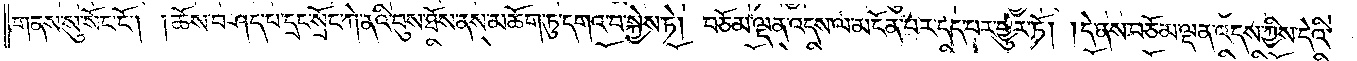གནས་སུ་སོང་ངོ༌། །ཆོས་བཤད་པ་དྲང་སྲོང་ཀེ་ནའི་བུས་ཐོས་ནས་མཆོག་ཏུ་དགའ་བ་སྐྱེས་ཏེ། བཅོམ་ལྡན་འདས་ལ་མངོན་པར་དད་པར་གྱུར་ཏོ། །དེ་ནས་བཅོམ་ལྡན་འདས་ཀྱིས་དེའི་
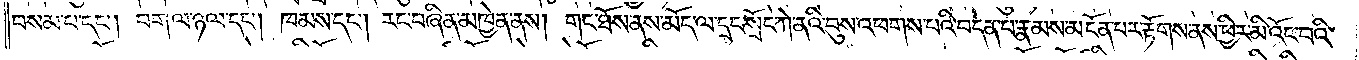བསམ་པ་དང༌། བག་ལ་ཉལ་དང༌། ཁམས་དང༌། རང་བཞིན་མཁྱེན་ནས། གང་ཐོས་ནས་མོད་ལ་དྲང་སྲོང་ཀེ་ནའི་བུས་འཕགས་པའི་བདེན་པ་རྣམས་མངོན་པར་རྟོགས་ནས་ཕྱིར་མི་འོང་བའི་
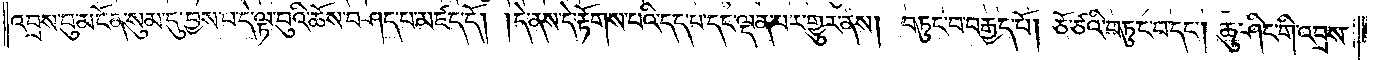འབྲས་བུ་མངོན་སུམ་དུ་བྱས་པ་དེ་ལྟ་བུའི་ཆོས་བཤད་པ་མཛད་དོ། །དེ་ནས་དེ་རྟོགས་པའི་དད་པ་དང་ལྡན་པར་གྱུར་ནས། བཏུང་བ་བརྒྱད་པོ། ཅོ་ཙའི་བཏུང་བ་དང༌། ཆུ་ཤིང་གི་འབྲས་
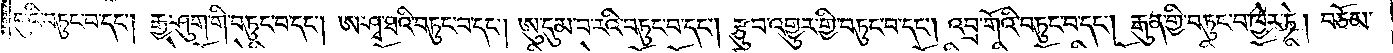བུའི་བཏུང་བ་དང༌། རྒྱ་ཤུག་གི་བཏུང་བ་དང༌། ཨ་ཤྭ་ཐའི་བཏུང་བ་དང༌། ཨུ་དུམ་བ་རའི་བཏུང་བ་དང༌། རྩུབ་འགྱུར་གྱི་བཏུང་བ་དང༌། འབྲ་གོའི་བཏུང་བ་དང༌། རྒུན་གྱི་བཏུང་བ་ཁྱེར་ཏེ། བཅོམ་
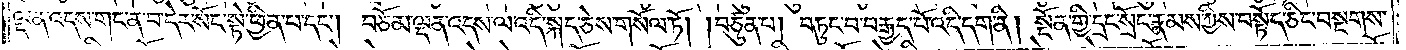ལྡན་འདས་གང་ན་བ་དེར་སོང་སྟེ་ཕྱིན་པ་དང༌། བཅོམ་ལྡན་འདས་ལ་འདི་སྐད་ཅེས་གསོལ་ཏོ། །བཙུན་པ། བཏུང་བ་བརྒྱད་པོ་འདི་དག་ནི། སྔོན་གྱི་དྲང་སྲོང་རྣམས་ཀྱིས་བསྟོད་ཅིང་བསྔགས་
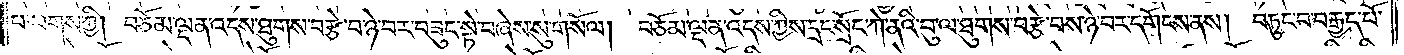པ་ལགས་ཀྱི། བཅོམ་ལྡན་འདས་ཐུགས་བརྩེ་བ་ཉེ་བར་བཟུང་སྟེ་བཞེས་སུ་གསོལ། བཅོམ་ལྡན་འདས་ཀྱིས་དྲང་སྲོང་ཀེ་ནའི་བུ་ལ་ཐུགས་བརྩེ་བས་ཉེ་བར་དགོངས་ནས། བཏུང་བ་བརྒྱད་པོ་
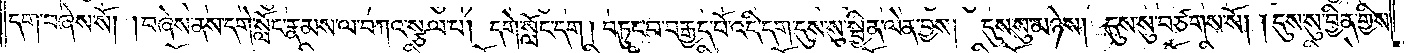དག་བཞེས་སོ། །བཞེས་ནས་དགེ་སློང་རྣམས་ལ་བཀའ་སྩལ་པ། དགེ་སློང་དག། བཏུང་བ་བརྒྱད་པོ་འདི་དག་དུས་སུ་སྦྱིན་ལེན་བྱས། དུས་སུ་མཉེས། དུས་སུ་བཙགས་སོ། །དུས་སུ་བྱིན་གྱིས་
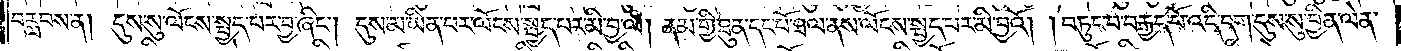བརླབས་ན། དུས་སུ་ལོངས་སྤྱད་པར་བྱ་ཞིང༌། དུས་མ་ཡིན་པར་ལོངས་སྤྱད་པར་མི་བྱ་ལ། ནམ་གྱི་ཐུན་དང་པོ་ཐལ་ནས་ལོངས་སྤྱད་པར་མི་བྱའོ། །བཏུང་བ་བརྒྱད་པོ་འདི་དག་དུས་སུ་བྱིན་ལེན་
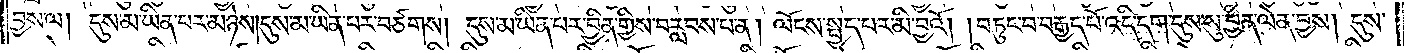བྱས་ལ། དུས་མ་ཡིན་པར་མཉེས། དུས་མ་ཡིན་པར་བཙགས། དུས་མ་ཡིན་པར་བྱིན་གྱིས་བརླབས་པ་ན། ལོངས་སྤྱད་པར་མི་བྱའོ། །བཏུང་བ་བརྒྱད་པོ་འདི་དག་དུས་སུ་བྱིན་ལེན་བྱས། དུས་
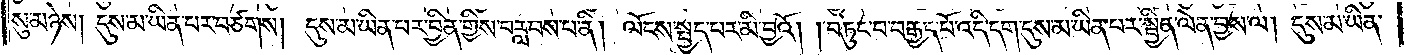སུ་མཉེས། དུས་མ་ཡིན་པར་བཙགས། དུས་མ་ཡིན་པར་བྱིན་གྱིས་བརླབས་པ་ནི། ལོངས་སྤྱད་པར་མི་བྱའོ། །བཏུང་བ་བརྒྱད་པོ་འདི་དག་དུས་མ་ཡིན་པར་སྦྱིན་ལེན་བྱས་ལ། དུས་མ་ཡིན་
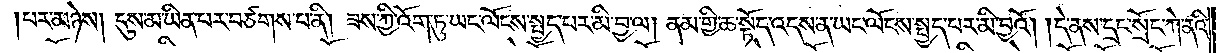པར་མཉེས། དུས་མ་ཡིན་པར་བཙགས་པ་ནི། ཟས་ཀྱི་འོག་ཏུ་ཡང་ལོངས་སྤྱད་པར་མི་བྱ་ལ། ནམ་གྱི་ཆ་སྟོད་འདས་ན་ཡང་ལོངས་སྤྱད་པར་མི་བྱའོ། །དེ་ནས་དྲང་སྲོང་ཀེ་ནའི་
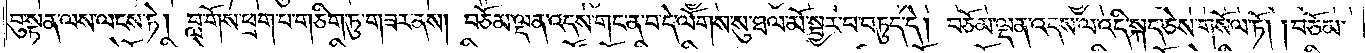བུ་སྟན་ལས་ལངས་ཏེ། བླ་གོས་ཕྲག་པ་གཅིག་ཏུ་གཟར་ནས། བཅོམ་ལྡན་འདས་གང་ན་བ་དེ་ལོགས་སུ་ཐལ་མོ་སྦྱར་བ་བཏུད་དེ། བཅོམ་ལྡན་འདས་ལ་འདི་སྐད་ཅེས་གསོལ་ཏོ། །བཅོམ་
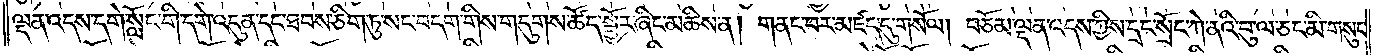ལྡན་འདས་དགེ་སློང་གི་དགེ་འདུན་དང་ཐབས་ཅིག་ཏུ་སང་བདག་གིས་གདུགས་ཚོད་སྦྱོར་ཞིང་མཆིས་ན། གནང་བར་མཛད་དུ་གསོལ། བཅོམ་ལྡན་འདས་ཀྱིས་དྲང་སྲོང་ཀེ་ནའི་བུ་ལ་ཅང་མི་གསུང་
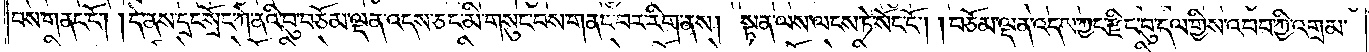བས་གནང་ངོ༌། །དེ་ནས་དྲང་སྲོང་ཀེ་ནའི་བུ་བཅོམ་ལྡན་འདས་ཅང་མི་གསུང་བས་གནང་བར་རིག་ནས། སྟན་ལས་ལངས་ཏེ་སོང་ངོ༌། །བཅོམ་ལྡན་འདས་ཀྱང་རྫིང་བུ་དལ་གྱིས་འབབ་ཀྱི་འགྲམ་
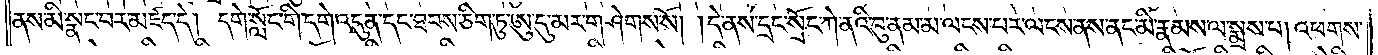ནས་མི་སྣང་བར་མཛད་དེ། དགེ་སློང་གི་དགེ་འདུན་དང་ཐབས་ཅིག་ཏུ་ཨུ་དུ་མར་གཤེགས་སོ། །དེ་ནས་དྲང་སྲོང་ཀེ་ནའི་བུ་ནམ་མ་ལངས་པར་ལངས་ནས་ནང་མི་རྣམས་ལ་སྨྲས་པ། འཕགས་
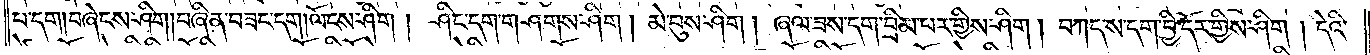པ་དག །བཞེངས་ཤིག །བཞིན་བཟང་དག །ལོངས་ཤིག །ཤིང་དག་གཤེགས་ཤིག །མེ་བུས་ཤིག །ཞལ་ཟས་དག་བྲིམ་པར་གྱིས་ཤིག །བཀད་ས་དག་བྱི་དོར་གྱིས་ཤིག །དེའི་
